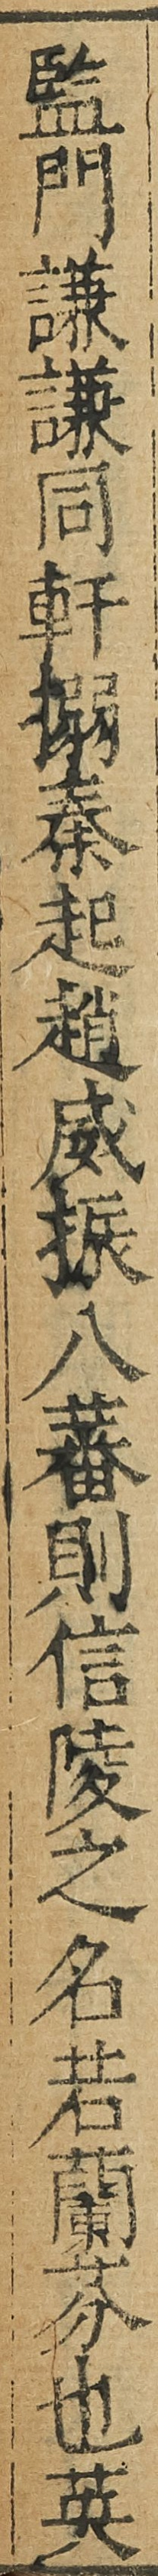監門嗛嗛同軒搦秦起趙威振八蕃則信陵之名若蘭芬也英
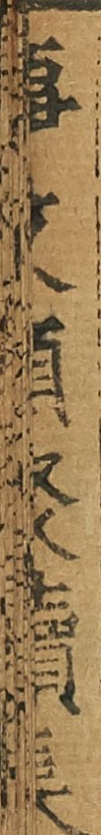事文類聚續集
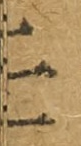三
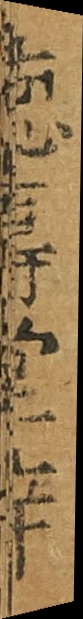德壽堂梓
